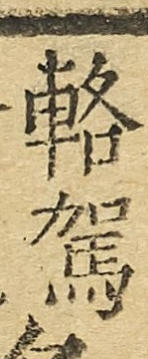輅駕
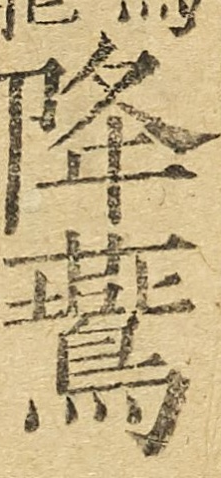降鷰
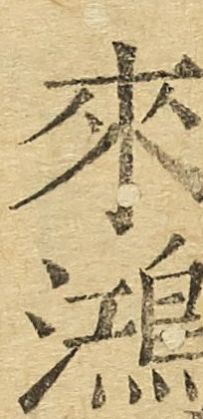來鴻
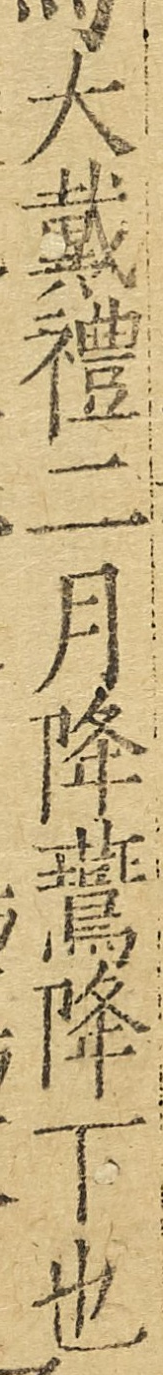大戴禮二月降鷰降下也
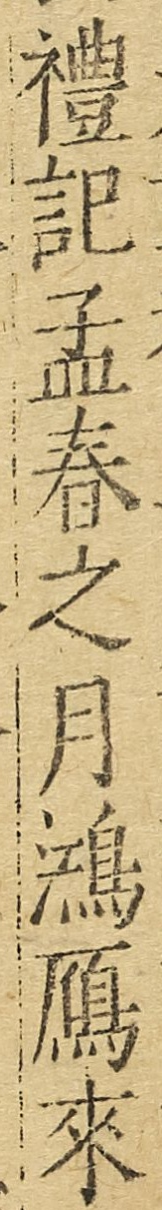禮記孟春之月鴻鴈來
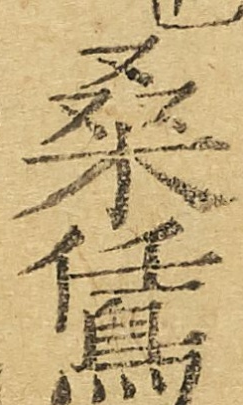桑鵀
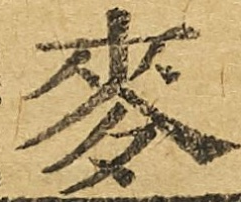麥
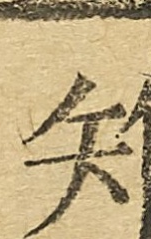雉
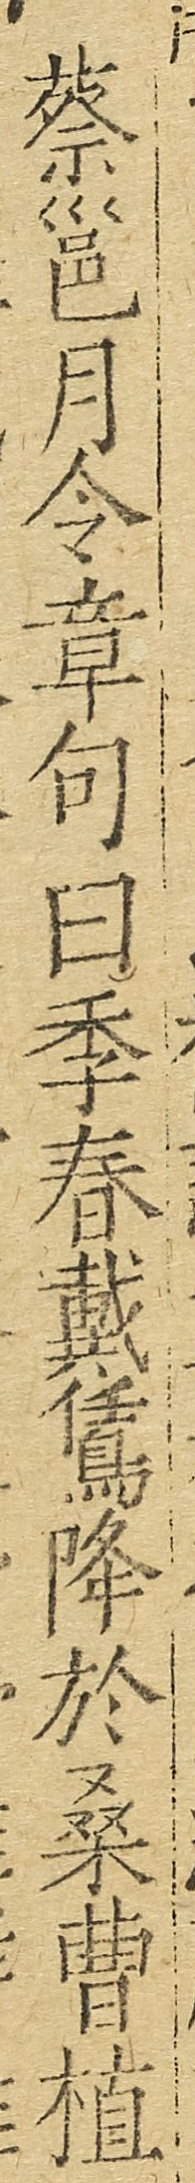蔡邕月令章句曰季春戴鵀降於桑曹植
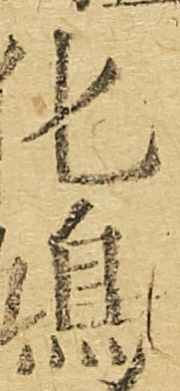化鳩
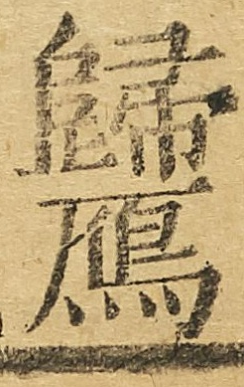歸鴈
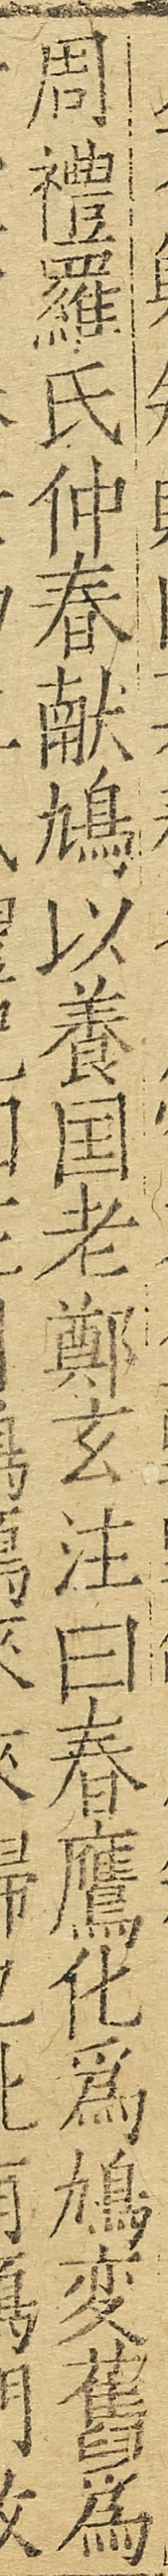周禮羅氏仲春獻鳩以養國老鄭玄注曰春鷹化為鳩變舊為
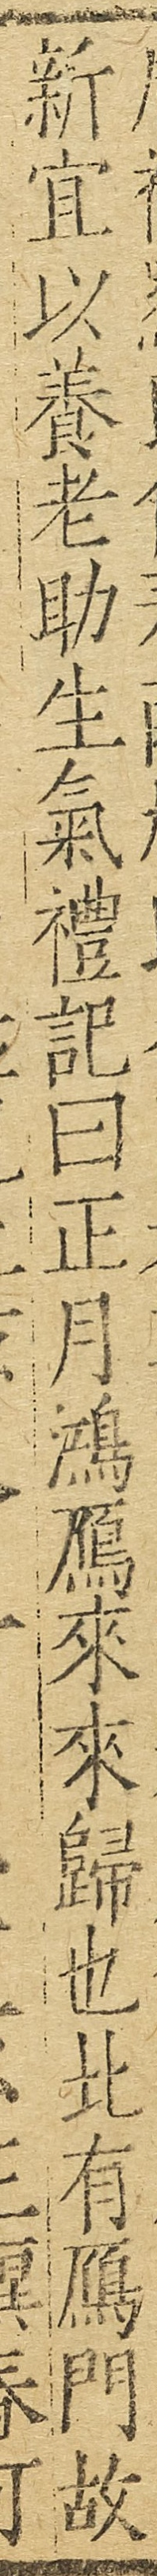新宜以養老助生氣禮記曰正月鴻鴈來來歸也北有鴈門故
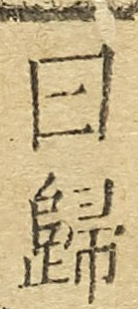曰歸
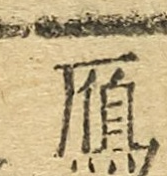鴈
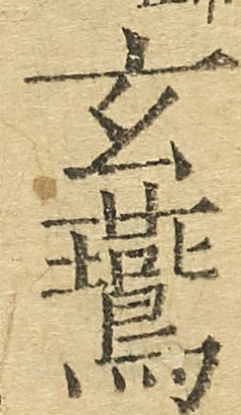玄鷰
